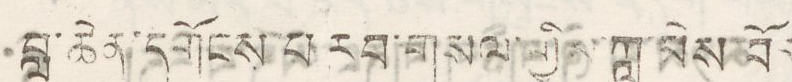བླ་ཆེན་དགོངས་པ་རབ་གསལ་གྱིས་ཀླུ་མེས་བོད
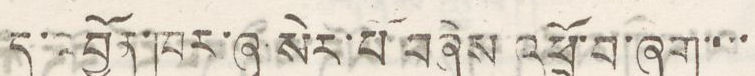དུ་འབྱོན་ཁར་ཞྭ་སེར་པོ་བཞེས འཕྲོ་བ་ཞག་་་་
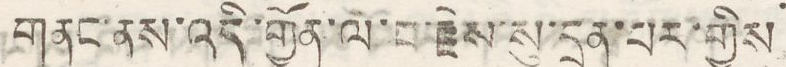གནང་ནས་འདི་གྱོན་ལ་པ་རྗེས་སུ་དྲན་པར་གྱིས
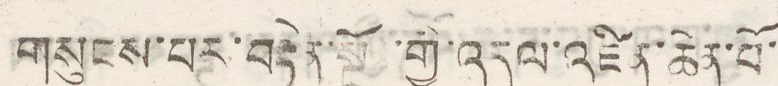གསུངས་པར་བརྟེན་སྔོ་གྱི་འདུལ་འཛིན་ཆེན་པོ་
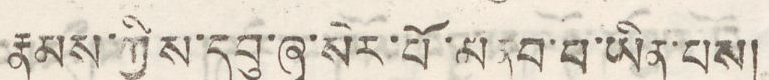རྣམས་ཀྱིས་དབུ་ཞྭ་སེར་པོ་མནབ་པ་ཡིན་པས།
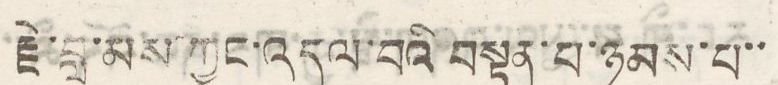རྗེ་བླ་མས་ཀྱང་འདུལ་བའི བསྟན་པ་ཉམས་པ་་
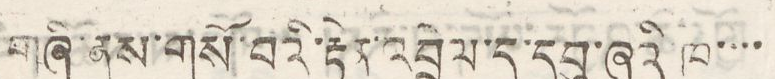གཞི་ནས་གསོ་བའི་རྟེན་འབྲེལ་དུ་དབུ་ཞྭའི་ཁ་་་་
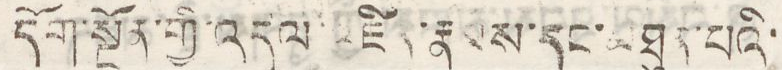དོག་སྔོན་གྱི་འདུལ་འཛིན་རྣམས་དང་མཐུན་པའི་
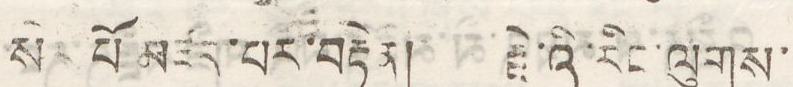སེར་པོ མཛད་པར་བརྟེན། རྗེའི་རིང་ལུགས་
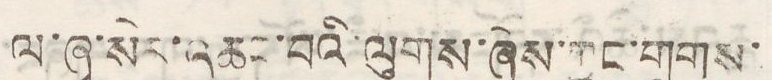ལ་ཞྭ་སེར་འཆང་བའི་ལུགས་ཞེས་ཀྱང་གྲགས་
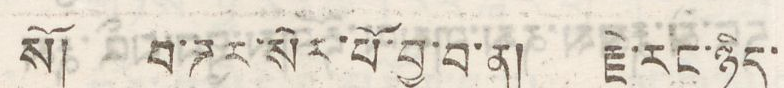སོ། བ་ཌུར་སེར་པོ་བྱ་བ་ན། རྗེ་རང་ཉིད་
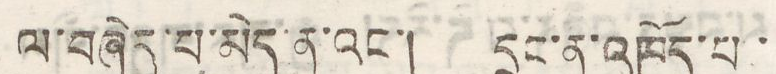ལ་བཞེད་པ་མེད་ན་འང་། དྲུང་ན་འཁོད་པ་
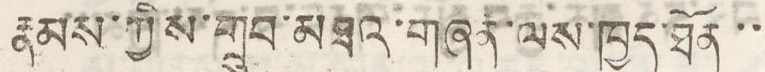རྣམས་ཀྱིས་གྲུབ་མཐའ་གཞན་ལས་ཁྱད་ཐོན་་
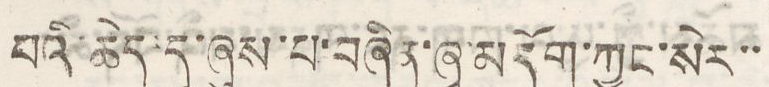པའི་ཆེད་དུ་ཞུས་པ་བཞིན་ཞྭ་མདོག་ཀྱང་སེར་་
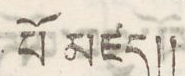པོ མཛད།།
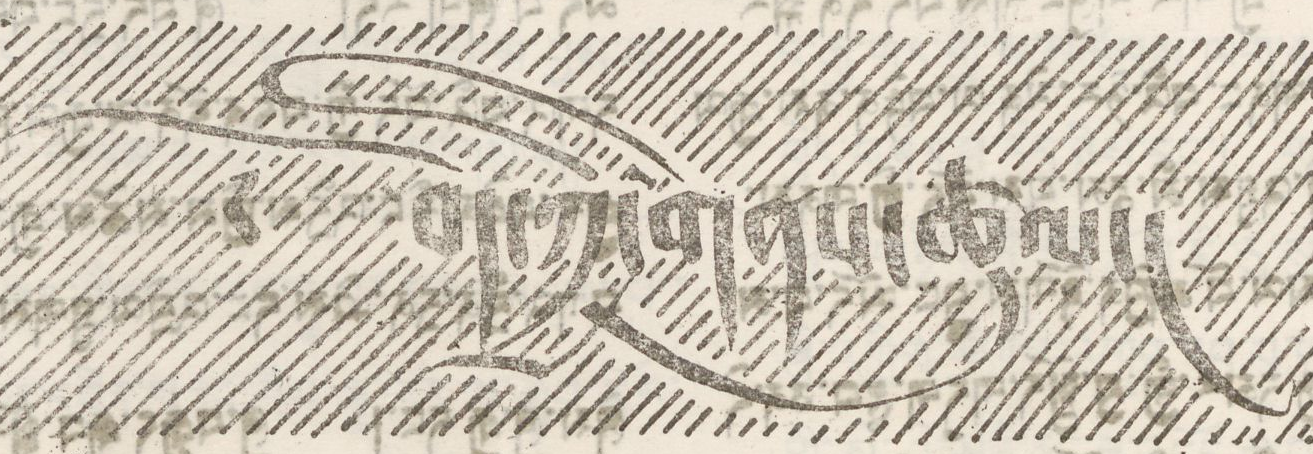༄། བོད་ཀྱི་གནས་ཚུལ།
